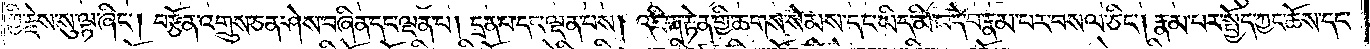ཀྱི་རྗེས་སུ་ལྟ་ཞིང༌། བརྩོན་འགྲུས་ཅན་ཤེས་བཞིན་དང་ལྡན་པ། དྲན་པ་དང་ལྡན་པས། འཇིག་རྟེན་གྱི་ཆགས་སེམས་དང་ཡིད་མི་བདེ་བ་རྣམ་པར་བསལ་ཅིང༌། རྣམ་པར་སྤྱོད་ཀྱང་ཆོས་དང་
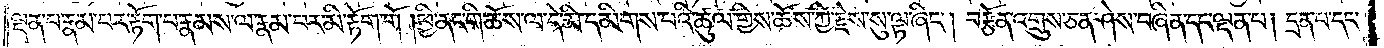ལྡན་པ་རྣམ་པར་རྟོག་པ་རྣམས་ལ་རྣམ་པར་མི་རྟོག་གོ །ཕྱི་ནང་གི་ཆོས་ལ་དེ་མི་དམིགས་པའི་ཚུལ་གྱིས་ཆོས་ཀྱི་རྗེས་སུ་ལྟ་ཞིང༌། བརྩོན་འགྲུས་ཅན་ཤེས་བཞིན་དང་ལྡན་པ། དྲན་པ་དང་
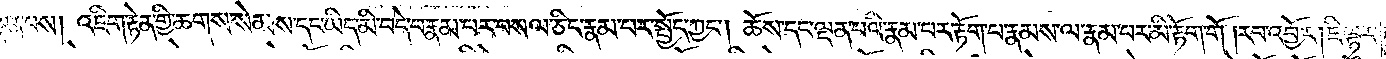ལྡན་པས། འཇིག་རྟེན་གྱི་ཆགས་སེམས་དང་ཡིད་མི་བདེ་བ་རྣམ་པར་བསལ་ཅིང་རྣམ་པར་སྤྱོད་ཀྱང༌། ཆོས་དང་ལྡན་པའི་རྣམ་པར་རྟོག་པ་རྣམས་ལ་རྣམ་པར་མི་རྟོག་གོ །རབ་འབྱོར། ཇི་ལྟར་
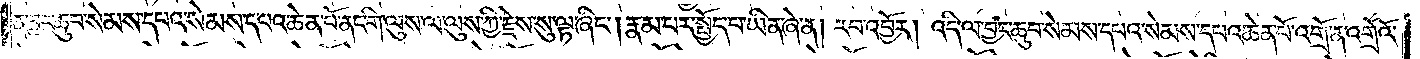ན་བྱང་ཆུབ་སེམས་དཔའ་སེམས་དཔའ་ཆེན་པོ་ནང་གི་ལུས་ལ་ལུས་ཀྱི་རྗེས་སུ་ལྟ་ཞིང༌། རྣམ་པར་སྤྱོད་པ་ཡིན་ཞེ་ན། རབ་འབྱོར། འདི་ལ་བྱང་ཆུབ་སེམས་དཔའ་སེམས་དཔའ་ཆེན་པོ་འགྲོ་ན་འགྲོའོ་
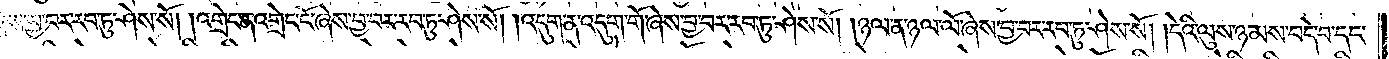ཞེས་བྱ་བར་རབ་ཏུ་ཤེས་སོ། །འགྲེང་ན་འགྲེང་ངོ་ཞེས་བྱ་བར་རབ་ཏུ་ཤེས་སོ། །འདུག་ན་འདུག་གོ་ཞེས་བྱ་བར་རབ་ཏུ་ཤེས་སོ། །ཉལ་ན་ཉལ་ལོ་ཞེས་བྱ་བར་རབ་ཏུ་ཤེས་སོ། །དེའི་ལུས་ཉམས་བདེ་བ་དང་
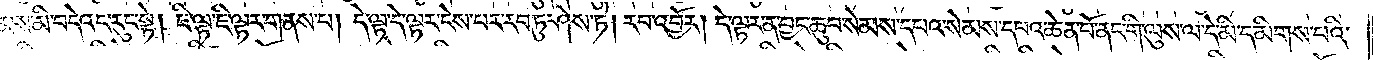མས་མི་བདེའང་རུང་སྟེ། ཇི་ལྟ་ཇི་ལྟར་གནས་པ། དེ་ལྟ་དེ་ལྟར་ངེས་པར་རབ་ཏུ་ཤེས་ཏེ། རབ་འབྱོར། དེ་ལྟར་ན་བྱང་ཆུབ་སེམས་དཔའ་སེམས་དཔའ་ཆེན་པོ་ནང་གི་ལུས་ལ་དེ་མི་དམིགས་པའི་
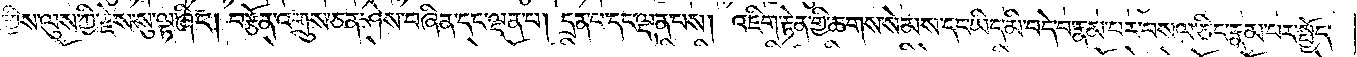གྱིས་ལུས་ཀྱི་རྗེས་སུ་ལྟ་ཞིང༌། བརྩོན་འགྲུས་ཅན་ཤེས་བཞིན་དང་ལྡན་པ། དྲན་པ་དང་ལྡན་པས། འཇིག་རྟེན་གྱི་ཆགས་སེམས་དང་ཡིད་མི་བདེ་བ་རྣམ་པར་བསལ་ཅིང་རྣམ་པར་སྤྱོད་
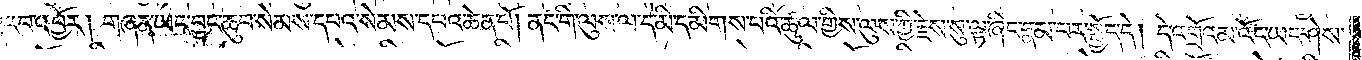རབ་འབྱོར། གཞན་ཡང་བྱང་ཆུབ་སེམས་དཔའ་སེམས་དཔའ་ཆེན་པོ། ནང་གི་ལུས་ལ་དེ་མི་དམིགས་པའི་ཚུལ་གྱིས་ལུས་ཀྱི་རྗེས་སུ་ལྟ་ཞིང་རྣམ་པར་སྤྱོད་དོ། །དེ་འགྲོའམ་འོང་ཡང་ཤེས་
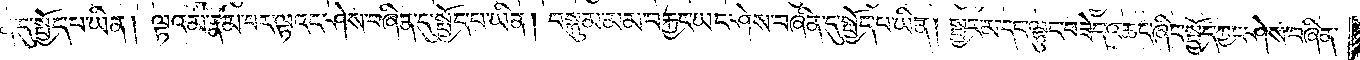དུ་སྤྱོད་པ་ཡིན ། ལྟ་འམ་རྣམ་པར་ལྟའང་ཤེས་བཞིན་དུ་སྤྱོད་པ་ཡིན། བསྐུམ་མམ་བརྐྱང་ཡང་ཤེས་བཞིན་དུ་སྤྱོད་པ་ཡིན། སྦྱར་མ་དང་ལྷུང་བཟེད་འཆང་ཞིང་སྤྱོད་ཀྱང་ཤེས་བཞིན་
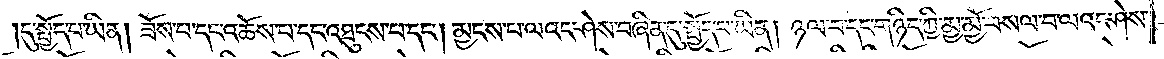དུ་སྤྱོད་པ་ཡིན། ཟོས་པ་དང་འཆོས་པ་དང་འཐུངས་པ་དང༌། མྱངས་པ་ལའང་ཤེས་བཞིན་དུ་སྤྱོད་པ་ཡིན། ཉལ་བ་དང་གཉིད་ཀྱི་མྱ་མྱོ་བསལ་བ་ལའང་ཤེས་
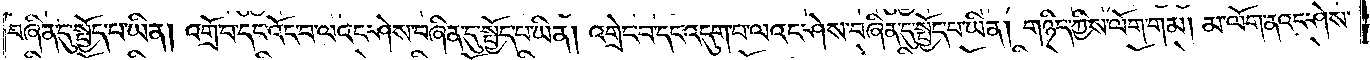བཞིན་དུ་སྤྱོད་པ་ཡིན། འགྲོ་བ་དང་འོང་བ་ལའང་ཤེས་བཞིན་དུ་སྤྱོད་པ་ཡིན། འགྲེང་བ་དང་འདུག་པ་ལའང་ཤེས་བཞིན་དུ་སྤྱོད་པ་ཡིན། གཉིད་ཀྱིས་ལོག་གམ། མ་ལོག་ནའང་ཤེས་
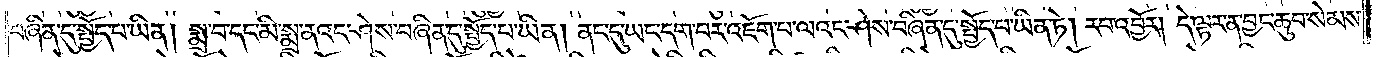བཞིན་དུ་སྤྱོད་པ་ཡིན། སྨྲ་བ་དང་མི་སྨྲ་ནའང་ཤེས་བཞིན་དུ་སྤྱོད་པ་ཡིན། ནང་དུ་ཡང་དག་པར་འཇོག་པ་ལའང་ཤེས་བཞིན་དུ་སྤྱོད་པ་ཡིན་ཏེ། རབ་འབྱོར། དེ་ལྟར་ན་བྱང་ཆུབ་སེམས་
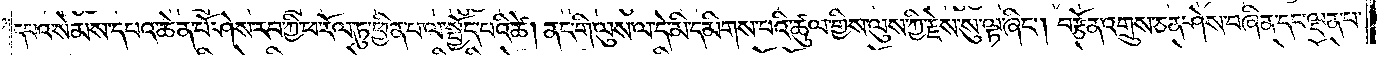དཔའ་སེམས་དཔའ་ཆེན་པོ་ཤེས་རབ་ཀྱི་ཕ་རོལ་ཏུ་ཕྱིན་པ་ལ་སྤྱོད་པའི་ཚེ། ནང་གི་ལུས་ལ་དེ་མི་དམིགས་པའི་ཚུལ་གྱིས་ལུས་ཀྱི་རྗེས་སུ་ལྟ་ཞིང༌། བརྩོན་འགྲུས་ཅན་ཤེས་བཞིན་དང་ལྡན་པ་
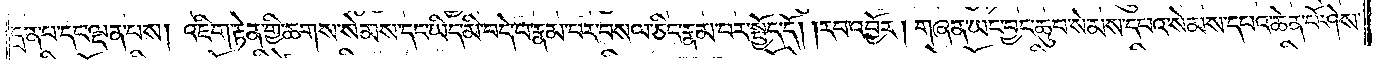དྲན་པ་དང་ལྡན་པས། འཇིག་རྟེན་གྱི་ཆགས་སེམས་དང་ཡིད་མི་བདེ་བ་རྣམ་པར་བསལ་ཅིང་རྣམ་པར་སྤྱོད་དོ། །རབ་འབྱོར། གཞན་ཡང་བྱང་ཆུབ་སེམས་དཔའ་སེམས་དཔའ་ཆེན་པོ་ཤེས་
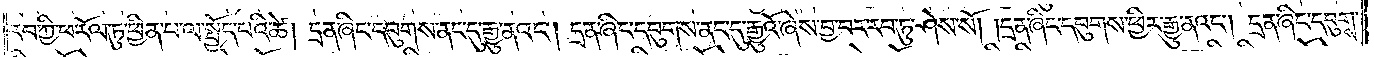རབ་ཀྱི་ཕ་རོལ་ཏུ་ཕྱིན་པ་ལ་སྤྱོད་པའི་ཚེ། དྲན་ཞིང་དབུགས་ནང་དུ་རྒྱུ་ནའང༌། དྲན་ཞིང་དབུགས་ནང་དུ་རྒྱུའོ་ཞེས་བྱ་བར་རབ་ཏུ་ཤེས་སོ། །དྲན་ཞིང་དབུགས་ཕྱིར་རྒྱུ་ནའང༌། དྲན་ཞིང་དབུགས་
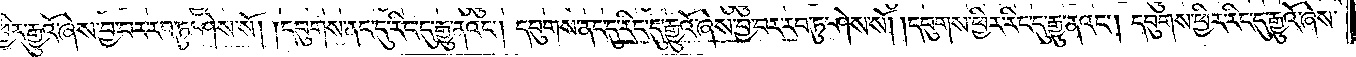ཕྱིར་རྒྱུའོ་ཞེས་བྱ་བར་རབ་ཏུ་ཤེས་སོ། །དབུགས་ནང་དུ་རིང་དུ་རྒྱུ་ནའང༌། དབུགས་ནང་དུ་རིང་དུ་རྒྱུའོ་ཞེས་བྱ་བར་རབ་ཏུ་ཤེས་སོ། །དབུགས་ཕྱིར་རིང་དུ་རྒྱུ་ནའང༌། དབུགས་ཕྱིར་རིང་དུ་རྒྱུའོ་ཞེས་
